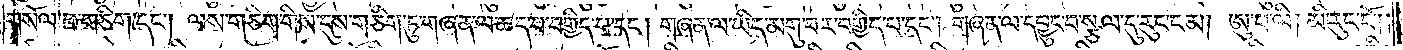གསོལ་པ་གཅིག་དང༌། ལས་གཅིག་གིས་དུས་གཅིག་ཏུ་གཞན་ལ་ཆད་པ་བགྱིད་པ་དང༌། གཞན་ལ་ཡིད་མགུ་བར་བགྱིད་པ་དང༌། གཞན་ལ་དབྱུང་བ་སྩལ་དུ་རུང་ངམ། ཨུ་པ་ལི། མི་རུང་ངོ༌༎
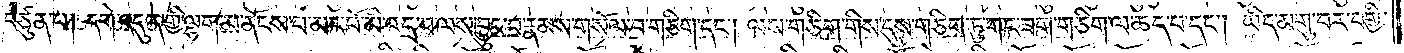བཙུན་པ། དགེ་འདུན་གྱི་ལྷག་མ་ནོངས་པ་མང་པོ་མི་འདྲ་བ་ལས་བྱུང་བ་རྣམས་གསོལ་བ་གཅིག་དང༌། ལས་གཅིག་གིས་དུས་གཅིག་ཏུ་གང་ཟག་གཅིག་ལ་ཆད་པ་དང༌། ཡིད་མགུ་བར་བགྱི་
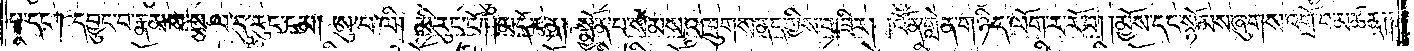པ་དང༌། དབྱུང་བ་རྣམས་སྩལ་དུ་རུང་ངམ། ཨུ་པ་ལི། མི་རུང་ངོ༌། །མདོར་ན། སྨྱོན་པ་སེམས་འཁྲུགས་ནད་ཀྱིས་གཟིར། །འོན་གླེན་གཉིད་ལོག་ར་རོ་བ། །མྱོས་དང་སྙོམས་ཞུགས་འགྲོ་བ་མཚན༎
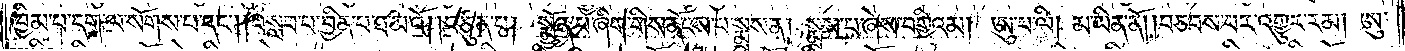ཁྱིམ་པ་དག་ལ་སོགས་པ་དང༌། །བསླབ་པ་བྱིན་པ་ཐ་མའོ། །བཙུན་པ། སྨྱོན་པ་ཞིག་གིས་ནོངས་པ་སྨྲས་ན། སྨྲས་པ་ཞེས་བགྱིའམ། ཨུ་པ་ལི། མ་ཡིན་ནོ། །བཅབས་པར་འགྱུར་རམ། ཨུ་
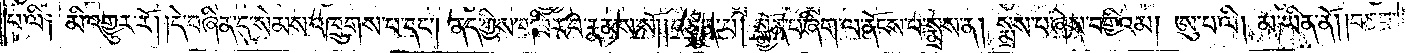པ་ལི༑ མི་འགྱུར་རོ། །དེ་བཞིན་དུ་སེམས་འཁྲུགས་པ་དང༌། ནད་ཀྱིས་གཟིར་བ་རྣམས་སོ། །བཙུན་པ། སྨྱོན་པ་ཞིག་ལ་ནོངས་པ་སྨྲས་ན། སྨྲས་པ་ཞེས་བགྱིའམ། ཨུ་པ་ལི། མ་ཡིན་ནོ། །བཅབ་
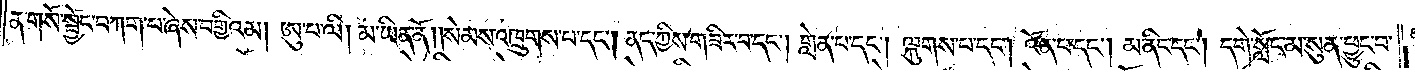ན་གསོ་སྦྱོང་བཀག་པ་ཞེས་བགྱིའམ། ཨུ་པ་ལི། མ་ཡིན་ནོ། །སེམས་འཁྲུགས་པ་དང༌། ནད་ཀྱིས་གཟིར་བ་དང༌། གླེན་པ་དང༌། ལྐུགས་པ་དང༌། འོན་པ་དང༌། མ་ནིང་དང༌། དགེ་སློང་མ་སུན་ཕྱུང་བ་
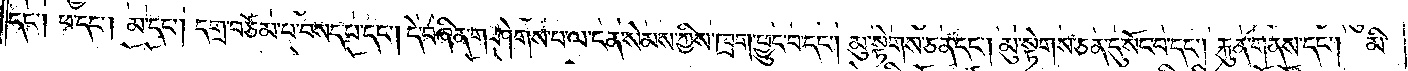དང༌། ཕ་དང༌། མ་དང༌། དགྲ་བཅོམ་པ་བསད་པ་དང༌། དེ་བཞིན་གཤེགས་པ་ལ་ངན་སེམས་ཀྱིས་ཁྲག་ཕྱུང་བ་དང༌། མུ་སྟེགས་ཅན་དང༌། མུ་སྟེགས་ཅན་དུ་སོང་བ་དང༌། རྐུན་གནས་དང༌། མི་
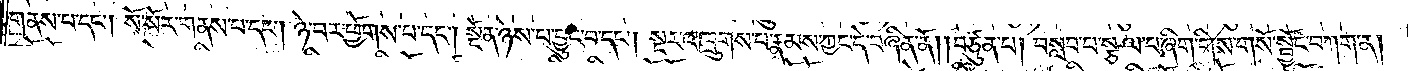གནས་པ་དང༌། སོ་སོར་གནས་པ་དང༌། ཉེ་བར་ཕྱོགས་པ་དང༌། སྔོན་ཉེས་པ་བྱུང་བ་དང༌། སྔར་འཁྲུགས་པ་རྣམས་ཀྱང་དེ་བཞིན་ནོ། །བཙུན་པ། བསླབ་པ་སྩལ་པ་ཞིག་གིས་གསོ་སྦྱོང་བཀག་ན།
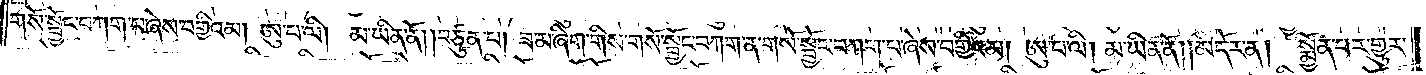གསོ་སྦྱོང་བཀག་པ་ཞེས་བགྱིའམ། ཨུ་པ་ལི། མ་ཡིན་ནོ། །བཙུན་པ། ཟ་མ་ཞིག་གིས་གསོ་སྦྱོང་བཀག་ན་གསོ་སྦྱོང་བཀག་པ་ཞེས་བགྱིའམ། ཨུ་པ་ལི། མ་ཡིན་ནོ། །མདོར་ན། སྨྱོན་པར་གྱུར་
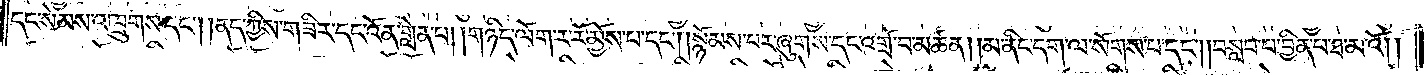དང་སེམས་འཁྲུགས་དང༌། །ནད་ཀྱིས་གཟིར་དང་འོན་གླེན་པ། །གཉིད་ལོག་ར་རོ་མྱོས་པ་དང༌། །སྙོམས་པར་ཞུགས་དང་འགྲོ་བ་མཚན། །མ་ནིང་དག་ལ་སོགས་པ་དང༌། །བསླབ་པ་བྱིན་པ་ཐ་མའོ། །
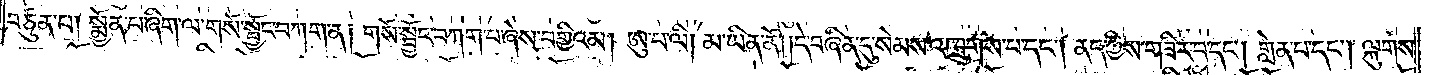བཙུན་པ། སྨྱོན་པ་ཞིག་ལ་གསོ་སྦྱོང་བཀག་ན། གསོ་སྦྱོང་བཀག་པ་ཞེས་བགྱིའམ། ཨུ་པ་ལི། མ་ཡིན་ནོ། །དེ་བཞིན་དུ་སེམས་འཁྲུགས་པ་དང༌། ནད་ཀྱིས་གཟིར་བ་དང༌། གླེན་པ་དང༌། ལྐུགས་
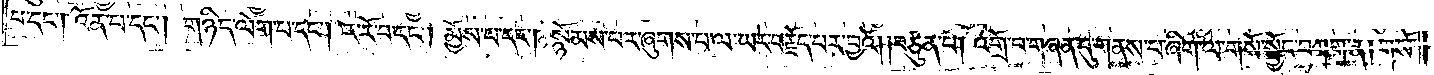པ་དང༌། འོན་པ་དང༌། གཉིད་ལོག་པ་དང༌། ར་རོ་བ་དང༌། མྱོས་པ་དང༌། སྙོམས་པར་ཞུགས་པ་ལ་ཡར་བརྗོད་པར་བྱའོ། །བཙུན་པ། འགྲོ་བ་གཞན་དུ་གནས་པ་ཞིག་ལ་གསོ་སྦྱོང་བཀག་ན། གསོ་
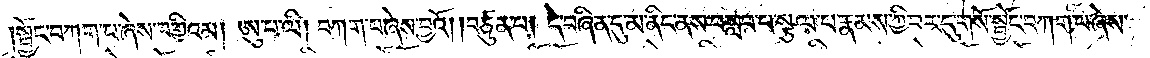།སྦྱོང་བཀག་པ་ཞེས་བགྱིའམ། ཨུ་པ་ལི། བཀག་པ་ཞེས་བྱའོ། །བཙུན་པ། དེ་བཞིན་དུ་མ་ནིང་ནས་བསླབ་པ་སྩལ་པ་རྣམས་ཀྱི་བར་དུ་གསོ་སྦྱོང་བཀག་པ་ཞེས་
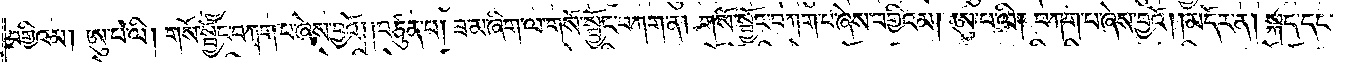བགྱིའམ། ཨུ་པ་ལི། གསོ་སྦྱོང་བཀག་པ་ཞེས་བྱའོ། །བཙུན་པ། ཟ་མ་ཞིག་ལ་གསོ་སྦྱོང་བཀག་ན། གསོ་སྦྱོང་བཀག་པ་ཞེས་བགྱིའམ། ཨུ་པ་ལི། བཀག་པ་ཞེས་བྱའོ། །མདོར་ན། སྐད་དང་
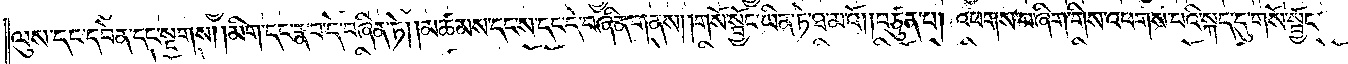ལུས་དང་དབེན་དང་སྔགས། །མིག་དང་རྣ་བ་དེ་བཞིན་ཏེ། །མཚམས་དང་ས་དང་དེ་བཞིན་གནས། །གསོ་སྦྱོང་ཡིན་ཏེ་ཐ་མ་འོ། །བཙུན་པ། འཕགས་པ་ཞིག་གིས་འཕགས་པའི་སྐད་དུ་གསོ་སྦྱོང་
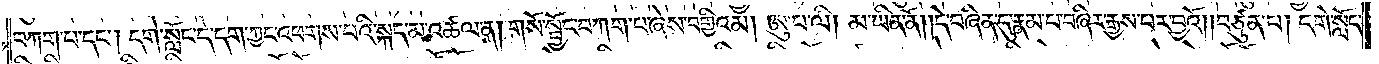བཀག་པ་དང༌། དགེ་སློང་དེ་དག་ཀྱང་འཕགས་པའི་སྐད་མ་འཚལ་ན། གསོ་སྦྱོང་བཀག་པ་ཞེས་བགྱིའམ། ཨུ་པ་ལི། མ་ཡིན་ནོ། །དེ་བཞིན་དུ་རྣམ་པ་བཞིར་རྒྱས་པར་བྱའོ། །བཙུན་པ། དགེ་སློང་
